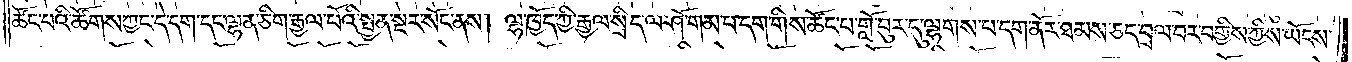ཚོང་པའི་ཚོགས་ཀྱང་དེ་དག་དང་ལྷན་ཅིག་རྒྱལ་པོའི་སྤྱན་སྔར་སོང་ནས། ལྷ་ཁྱོད་ཀྱི་རྒྱལ་སྲིད་ལ་ཤོ་གམ་པ་དག་གིས་ཚོང་པ་གློ་བུར་དུ་ལྷགས་པ་དག་ནོར་ཐམས་ཅད་བྲལ་བར་བགྱིས་ཀྱིས་ཡོངས་
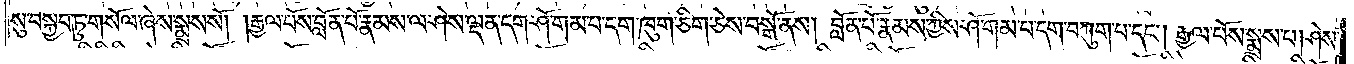སུ་བསྐྱབ་ཏུ་གསོལ་ཞེས་སྨྲས་སོ། །རྒྱལ་པོས་བློན་པོ་རྣམས་ལ་ཤེས་ལྡན་དག་ཤོ་གམ་པ་དག་ཁུག་ཅིག་ཅེས་བསྒོ་ནས། བློན་པོ་རྣམས་ཀྱིས་ཤོ་གམ་པ་དག་པ་བཀུག་པ་དང༌། རྒྱལ་པོས་སྨྲས་པ། ཤེས་
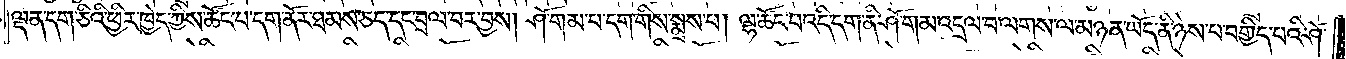ལྡན་དག་ཅིའི་ཕྱིར་ཁྱེད་ཀྱིས་ཚོང་པ་དག་ནོར་ཐམས་ཅད་དང་བྲལ་བར་བྱས། ཤོ་གམ་པ་དག་གིས་སྨྲས་པ། ལྷ་ཚོང་པ་འདི་དག་ནི་ཤོ་གམ་འདྲལ་བ་ལགས་ལ་མཉན་ཡོད་ནི་ཉེས་པ་བགྱིད་པའི་ཤོ་
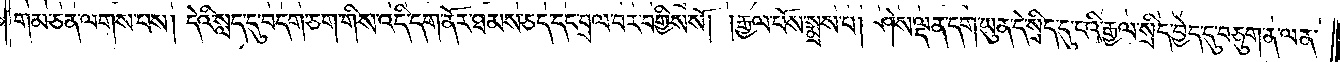གམ་ཅན་ལགས་པས། དེའི་སླད་དུ་བདག་ཅག་གིས་འདི་དག་ནོར་ཐམས་ཅད་དང་བྲལ་བར་བགྱིས་སོ། །རྒྱལ་པོས་སྨྲས་པ། ཤེས་ལྡན་དག་ཡུན་དེ་སྲིད་དུ་ངའི་རྒྱལ་སྲིད་བྱེད་དུ་བཅུག་ན་ལན་
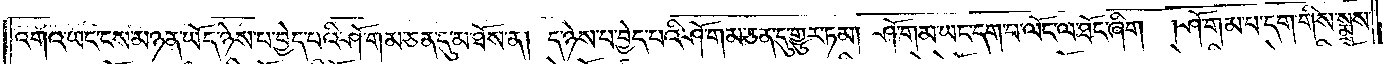འགའ་ཡང་ངས་མཉན་ཡོད་ཉེས་པ་བྱེད་པའི་ཤོ་གམ་ཅན་དུ་མ་ཐོས་ན། ད་ཉེས་པ་བྱེད་པའི་ཤོ་གམ་ཅན་དུ་གྱུར་ཏམ། ཤོ་གམ་ཡང་དག་པ་ལོང་ལ་ཐོང་ཞིག<gap>།ཤོ་གམ་པ་དག་གིས་སྨྲས་
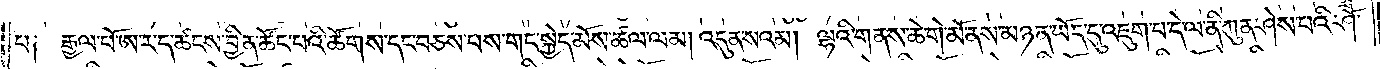པ༑ རྒྱལ་པོ་ཨ་ར་ད་ཚངས་བྱིན་ཚོང་པའི་ཚོགས་དང་བཅས་པས་གང་སྐྱེད་མོས་ཚལ་ལམ། འདུན་སའམ། ལྷའི་གནས་ཆེ་གེ་མོ་ནས་མཉན་ཡོད་དུ་འཇུག་པ་དེ་ལ་ནི་ཀུན་ཤེས་པའི་ཤོ་
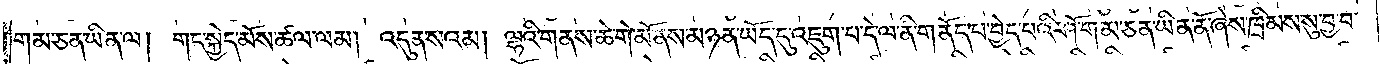གམ་ཅན་ཡིན་ལ། གང་སྐྱེད་མོས་ཚལ་ལམ། འདུན་སའམ། ལྷའི་གནས་ཆེ་གེ་མོ་ནས་མཉན་ཡོད་དུ་འཇུག་པ་དེ་ལ་ནི་གནོད་པ་བྱེད་པའི་ཤོ་གམ་ཅན་ཡིན་ནོ་ཞེས་ཁྲིམས་སུ་བྱ་བ་
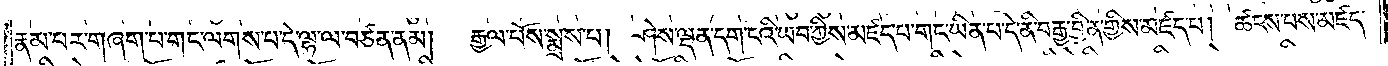རྣམ་པར་གཞག་པ་གང་ལགས་པ་དེ་ལྷ་ལ་བཙན་ནམ།    རྒྱལ་པོས་སྨྲས་པ། ཤེས་ལྡན་དག་ངའི་ཡབ་ཀྱིས་མཛད་པ་གང་ཡིན་པ་དེ་ནི་བརྒྱ་བྱིན་གྱིས་མཛད་པ། ཚངས་པས་མཛད་
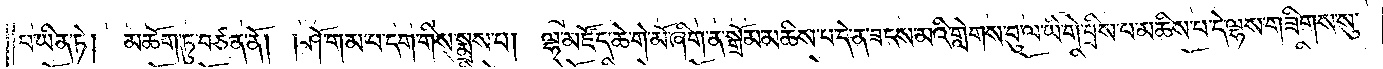པ་ཡིན་ཏེ། མཆོག་ཏུ་བཙན་ནོ། །ཤོ་གམ་པ་དག་གིས་སྨྲས་པ། ལྷ་མཛོད་ཆེ་གེ་མོ་ཞིག་ན་སྒྲོམ་མཆིས་པ་དེ་ན་ཟངས་མའི་གླེགས་བུ་ལ་ཡི་གེ་བྲིས་པ་མཆིས་པ་དེ་ལྷས་གཟིགས་སུ་
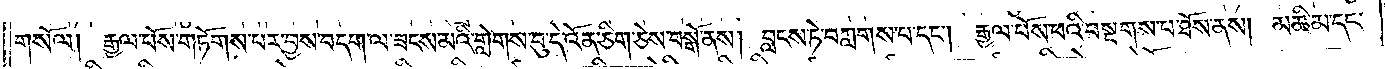གསོལ༑ རྒྱལ་པོས་གཏོགས་པར་བྱས་བདག་ལ་ཟངས་མའི་གླེགས་བུ་དེ་འོན་ཅིག་ཅེས་བསྒོ་ནས། བླངས་ཏེ་བཀླགས་པ་དང༌། རྒྱལ་པོས་ཕའི་བསྔགས་པ་ཐོས་ནས། མཆི་མ་དང་
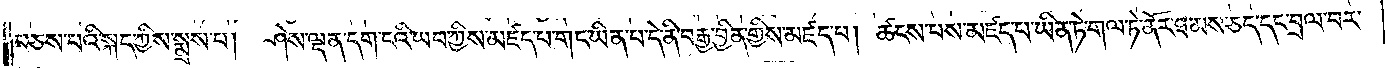བཅས་པའི་སྐད་ཀྱིས་སྨྲས་པ།   ཤེས་ལྡན་དག་ངའི་ཡབ་ཀྱིས་མཛད་པ་གང་ཡིན་པ་དེ་ནི་བརྒྱ་བྱིན་གྱིས་མཛད་པ། ཚངས་པས་མཛད་པ་ཡིན་ཏེ་གལ་ཏེ་ནོར་ཐམས་ཅད་དང་བྲལ་བར་
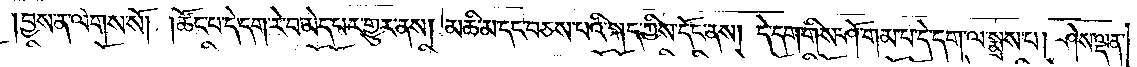བྱས་ན་ལེགས་སོ། །ཚོང་པ་དེ་དག་རེ་བ་མེད་པར་གྱུར་ནས། མཆི་མ་དང་བཅས་པའི་སྐད་ཀྱིས་དོང་ནས། དེ་དག་གིས་ཤོ་གམ་པ་དེ་དག་ལ་སྨྲས་པ། ཤེས་ལྡན་
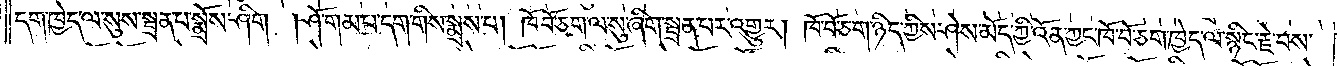དག་ཁྱེད་ལ་སུས་སྦྲན་པ་སྨྲོས་ཤིག །ཤོ་གམ་པ་དག་གིས་སྨྲས་པ། ཁོ་བོ་ཅག་ལ་སུ་ཞིག་སྦྲན་པར་འགྱུར། ཁོ་བོ་ཅག་ཉིད་ཀྱིས་ཤེས་མོད་ཀྱི་འོན་ཀྱང་ཁོ་བོ་ཅག་ཁྱེད་ལ་སྙིང་རྗེ་བས་
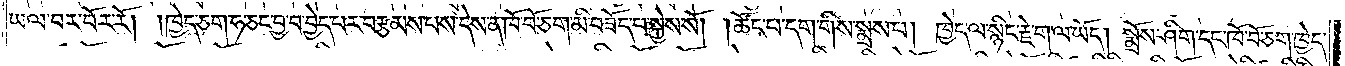ཡལ་བར་བོར་རོ། །ཁྱེད་ཅག་ཧ་ཅང་བྱ་བ་བྱེད་པར་བརྩམས་པས་དེས་ན་ཁོ་བོ་ཅག་མི་བཟོད་པ་སྐྱེས་སོ། །ཚོང་པ་དག་གིས་སྨྲས་པ། ཁྱེད་ལ་སྙིང་རྗེ་ག་ལ་ཡོད། སྨྲོས་ཤིག་དང་ཁོ་བོ་ཅག་ཁྱེད་
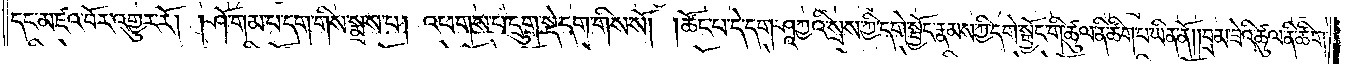དང་མཛའ་བོར་འགྱུར་རོ། །ཤོ་གམ་པ་དག་གིས་སྨྲས་པ། འཕགས་པ་དྲུག་སྡེ་དག་གིས་སོ། །ཚོང་པ་དེ་དག་ཤཱཀྱའི་སྲས་ཀྱི་དགེ་སྦྱོང་རྣམས་ཀྱི་དགེ་སྦྱོང་གི་ཚུལ་ནི་ཚིག་པ་ཡིན་ནོ། །བྲམ་ཟེའི་ཚུལ་ནི་ཚིག་
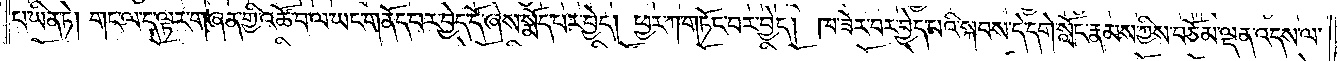པ་ཡིན་ཏེ། གང་ལ་ད་ལྟར་གཞན་གྱི་འཚོ་བ་ལ་ཡང་གནོད་པར་བྱེད་དོ་ཞེས་སྨོད་པར་བྱེད། ཕྱར་ཀ་གཏོང་བར་བྱེད། ཁ་ཟེར་བར་བྱེད་པའི་སྐབས་དེ་དགེ་སློང་རྣམས་ཀྱིས་བཅོམ་ལྡན་འདས་ལ་
